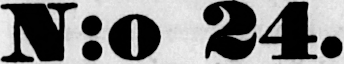N:o 24.
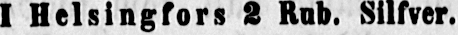I Helsingfors 2 Rub. Silfver.
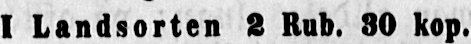I Landsorten 2 Rub. 30 kop.
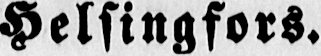Helsingfors.
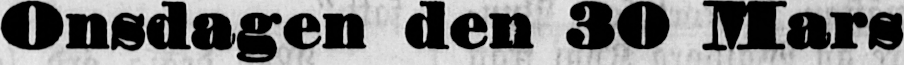Onsdagen den 30 Mars
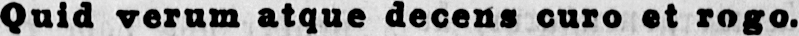Quid verum atque decens curo et rogo.
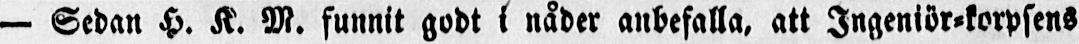— Sedan H. K. M. funnit godt i nåder anbefalla, att Ingeniör-korpsens
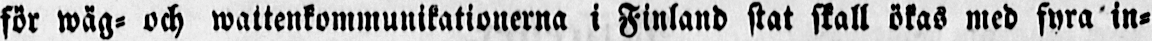för wäg- och wattenkommunikationerna i Finland stat skall ökas med fyra in-
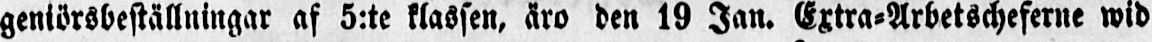geniörsbeställningar af 5:te klassen, äro den 19 Jan. Extra-Arbetscheferne wid
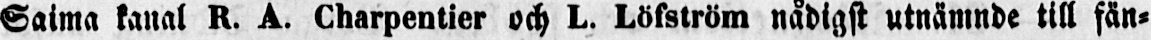Saima kanal R. A. Charpentier och L. Löfström nådigst utnämnde till fän-
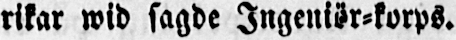rikar wid sagde Ingeniör-korps.
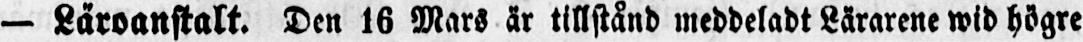— Läroanstalt. Den 16 Mars är tillstånd meddeladt Lärarene wid högre
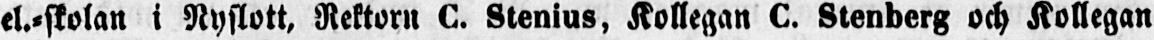el.-skolan i Nyslott, Rektorn C. Stenius, Kollegan C. Stenberg och Kollegan
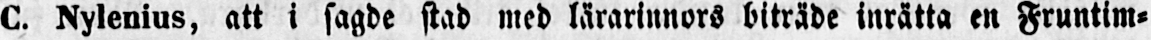C. Nylenius, att i sagde stad med lärarinnors biträde inrätta en Fruntim-
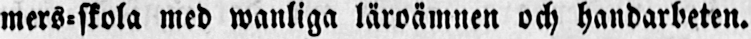mers-skola med wanliga läroämnen och handarbeten.
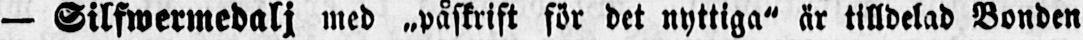— Silfwermedalj med "påskrift för det nyttiga" är tilldelad Bonden
